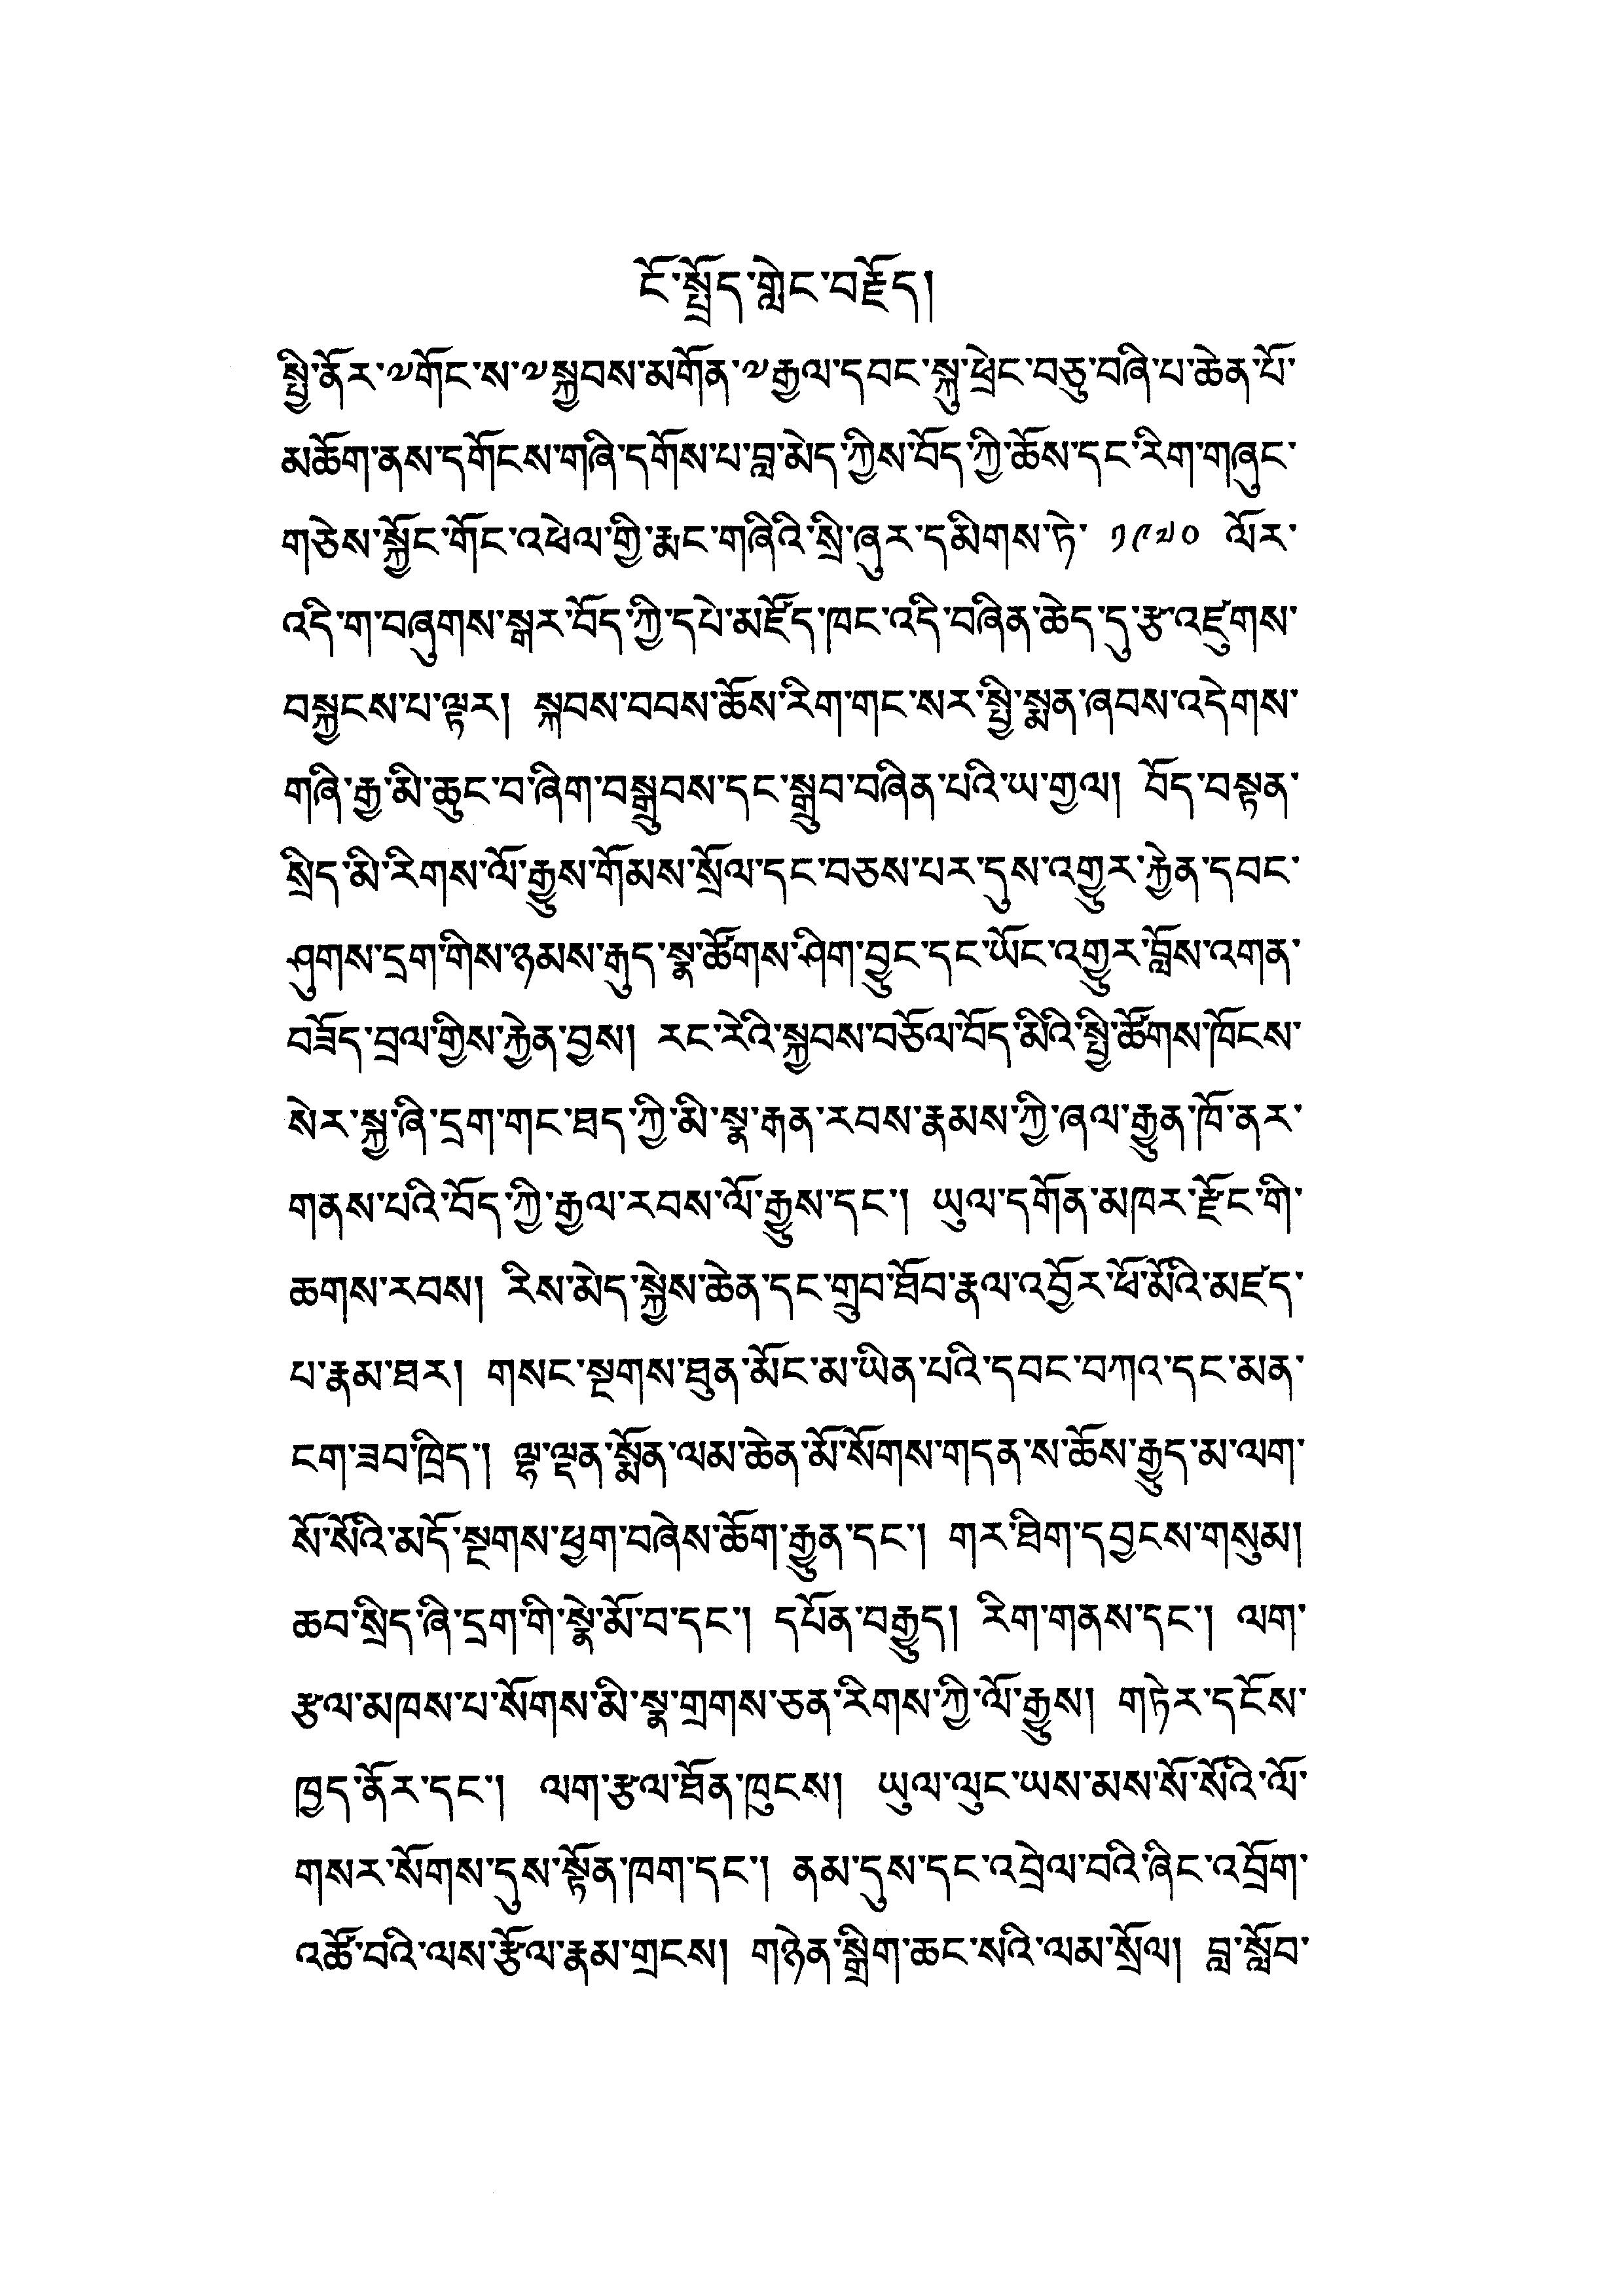ངོ་སྤྱོད་གླེང་བརྗོད།
སྤྱི་ནོར་༸་གོང་ས་༸སྐྱབས་མགོན་༸རྒྱལ་དབང་སྐུ་ཕྲེང་བཅུ་བཞི་པ་ཆེན་པོ་
མཆོག་ནས་དགོངས་གཞི་དགོས་པ་བླ་མེད་ཀྱིས་བོད་ཀྱི་ཆོས་དང་རིག་གཞུང་
གཅེས་སྐྱོང་གོང་འཕེལ་གྱི་རྨང་གཞིའི་སྲི་ཞུར་དམིགས་ཏེ་ ༡༩༧༠ ལོར་
འདི་ག་བཞུགས་སྒར་བོད་ཀྱི་དཔེ་མཛོད་ཁང་འདི་བཞིན་ཆེད་དུ་རྩ་འཛུགས་
བསྐྱངས་པ་ལྟར། སྐབས་བབས་ཆོས་རིག་གང་སར་སྤྱི་སྨན་ཞབས་འདེགས་
གཞི་རྒྱ་མི་ཆུང་བ་ཞིག་བསྒྲུབས་དང་སྒྲུབ་བཞིན་པའི་ཡ་གྱལ། བོད་བསྟན་
སྲིད་མི་རིགས་ལོ་རྒྱུས་གོམས་སྲོལ་དང་བཅས་པར་དུས་འགྱུར་རྐྱེན་དབང་
ཤུགས་དྲག་གིས་ཉམས་རྒུད་སྣ་ཚོགས་ཤིག་བྱུང་དང་ཡོང་འགྱུར་བློས་འགན་
བཟོད་བྲལ་གྱིས་རྐྱེན་བྱས། རང་རེའི་སྐྱབས་བཅོལ་བོད་མིའི་སྤྱི་ཚོགས་ཁོངས་
སེར་སྐྱ་ཞི་དྲག་གང་ཐད་ཀྱི་མི་སྣ་རྒན་རབས་རྣམས་ཀྱི་ཞལ་རྒྱུན་ཁོ་ནར་
གནས་པའི་བོད་ཀྱི་རྒྱལ་རབས་ལོ་རྒྱུས་དང་། ཡུལ་དགོན་མཁར་རྫོང་གི་
ཆགས་རབས། རིས་མེད་སྐྱེས་ཆེན་དང་གྲུབ་ཐོབ་རྣལ་འབྱོར་ཕོ་མོའི་མཛད་
པ་རྣམ་ཐར། གསང་སྔགས་ཐུན་མོང་མ་ཡིན་པའི་དབང་བཀའ་དང་མན་
ངག་ཟབ་ཁྲིད་། ལྷ་ལྡན་སྨོན་ལམ་ཆེན་མོ་སོགས་གདན་ས་ཆོས་རྒྱུད་མ་ལག་
སོ་སོའི་མདོ་སྔགས་ཕྱག་བཞེས་ཆོག་རྒྱུན་དང་། གར་ཐིག་དབྱངས་གསུམ།
ཆབ་སྲིད་ཞི་དྲག་གི་སྣེ་མོ་བ་དང་། དཔོན་བརྒྱུད། རིག་གནས་དང་། ལག་
རྩལ་མཁས་པ་སོགས་མི་སྣ་གྲགས་ཅན་རིགས་ཀྱི་ལོ་རྒྱུས། གཏེར་དངོས་
ཁྱད་ནོར་དང་། ལག་རྩལ་ཐོན་ཁུངས། ཡུལ་ལུང་ཡས་མས་སོ་སོའི་ལོ་
གསར་སོགས་དུས་སྟོན་ཁག་དང་། ནམ་དུས་དང་འབྲེལ་བའི་ཞིང་འབྲོག་
འཚོ་བའི་ལས་རྩོལ་རྣམ་གྲངས། གཉེན་སྒྲིག་ཆང་སའི་ལམ་སྲོལ། བླ་སློབ་
